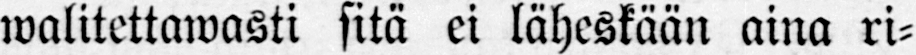walitettawasti sitä ei läheskään aina ri-
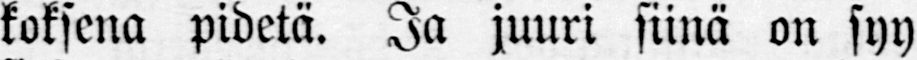koksena pidetä. Ja juuri siinä on syy
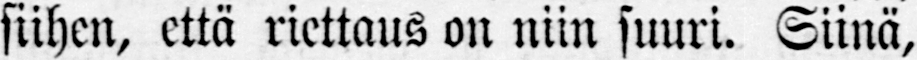siihen, että riettaus on niin suuri. Siinä,
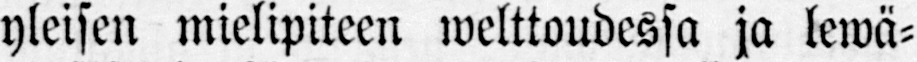yleisin mielipiteen welttoudessa ja lewä-
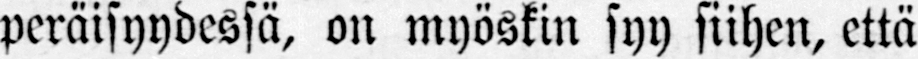peräisyydessä, on myöskin syy siihen, että
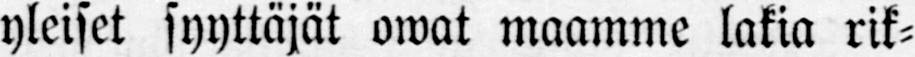yleiset syyttäjät owat maamme lakia rik-
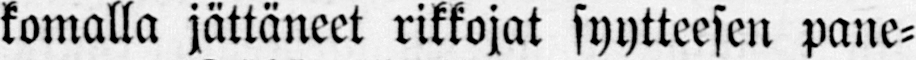komalla jättäneet rikkojat syytteesen pane-
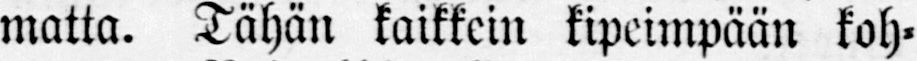matta. Tähän kaikkein kipeimpään koh-
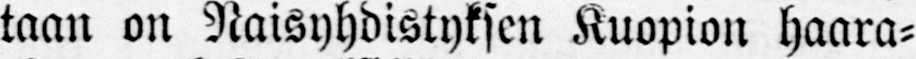taan on Naisyhdistyksin Kuopion haara-
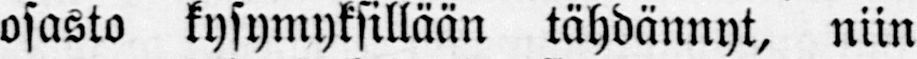osasto kysymyksillään tähdännyt, niin
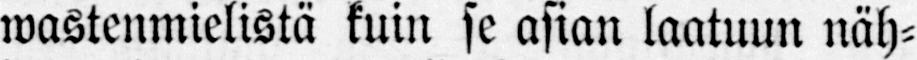wastenmielistä kuin se asian laatuun näh-
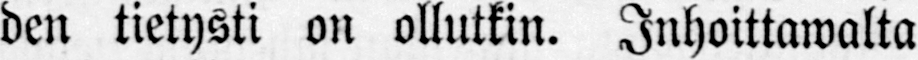den tietysti on ollutkin. Inhoittawalta
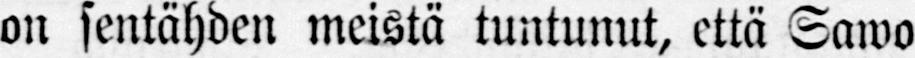on sentähden meistä tuntunut, että Sawo
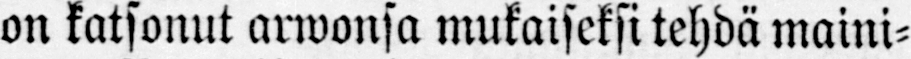on katsonut arwonsa mukaisiksi tehdä maini-
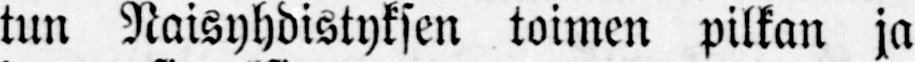tun Naisyhdistyksen toimen pilkan ja
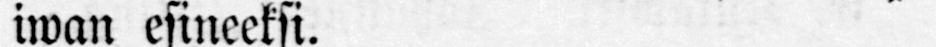iwan esineeksi.
